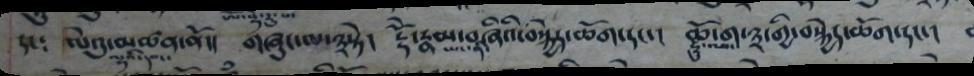དང༴  ལེའུ་མཚན་ནོ།།  གཞུང་ལ་༣སྟེ།   རྡོེ་རྣམ་བཞིའི་བསྐྱེད་ཆོག་དང་།   ཆོ་ག་༣་གྱི་བསྐྱེད་ཆོག་དང་།
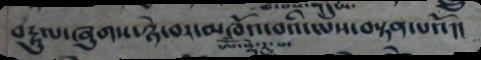བརྟུལ་ཞུགས་ཉེ་བར་མཁོའ་བའི་ལས་བསྟན་པའོ།།
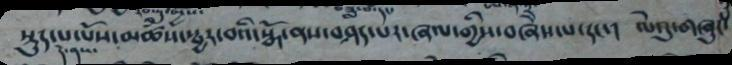སྡུད་པ་པོས་མཚཾས་སྦྱར་བའི་སྒོ་ནས་བཤད་པར་ཞལ་གྱིས་བཞེས་པ་དང་།  ལེའུ་གཞུང་
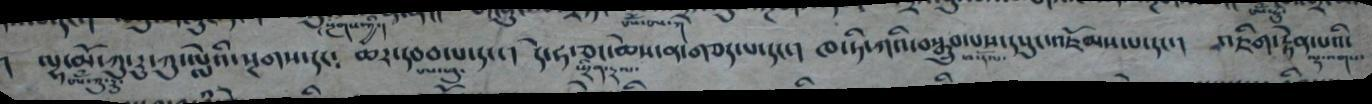།  ལྷ་མི་ཀུ་རུ་ཀུ་ལླེའི་སྔགས་དང༴	 ཆར་དབབ་པ་དང་།  དེ་ཧ་ཅང་ཆེས་ན་གཅད་པ་དང་།  ཁ་ཏི་ཀའི་བསྒྲུབ་པས་དཔུང་འཇོམས་པ་དང་།  འཇིག་རྟེན་པའི་
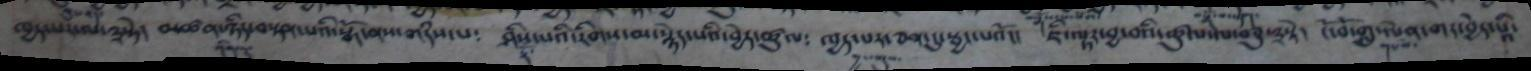ཁྱད་པར་མི་༣་ཏེ།  མཚན་ཉིད་བསྟན་པའི་སྒོ་ནས་གདཾས་པ༴  ཤིས་པའི་རིགས་མ་སྙེད་པའི་བྱེད་ཚུལ༴   ཁྱད་པར་ཅན་དུ་སྦྱང་པའོ།།   ཇི་ལྟར་བྱ་བའི་ཚུ་པའི་ས་བཅུ་༣སྟེ།    ངོ་བོ་གླ་ལེན་གད་བྱེད་པྰི་
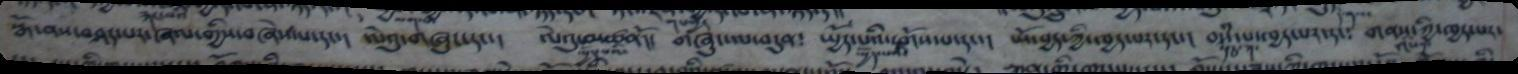སྒོ་ནས་བཤད་པར་ཞལ་གྱིས་བཞེས་པ་དང་།     ལེའུ་གཞུང་དང་།     ལེའུ་མཚནོ།།   གཞུང་ལ་བདུན༴   སྤྱོད་པའི་དགོས་པ་དང་།   སྤོང་བྱད་ཀྱི་ཁྱད་པར་དང་།   བདཾ་པ་ཁྱད་པར་དང༴   གནས་ཀྱི་ཁྱད་པར་
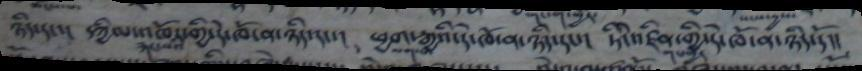ཉིད་དང་།  དཀྱིལ་འཁོར་གྱི་དེ་ཁོ་ན་ཉིད་དང་།  ཕྱག་རྒྱའི་དེ་ཁོ་ན་ཉིད་དང་།  ཏིང་ངེ་འཛིན་གྱི་དེ་ཁོ་ན་ཉིད་དོ།།
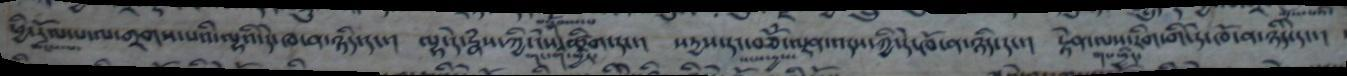ཕྱི་རོལ་པ་ལ་གྲགས་པའི་ལྷའི་དེ་ཁ་ན་ཉིད་དང་།  ལྷ་དེ་རྣཾས་ཀྱི་ངེས་ཚིག་དང་།  སདྱས་དང་བཅོཾ་ལྡན་འདས་ཀྱི་དེ་ཁོ་ན་ཉིད་དང་།  རྟེན་ལས་རིག་གི་དེ་ཁོ་ན་ཉིད་དང་།
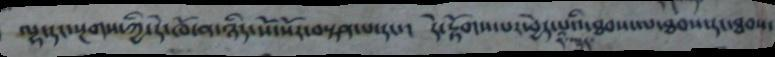ལྷ་དང་སྔགས་ཀྱི་དེ་ཁོ་ན་ཉིད་སོ་སོར་བསྟན་པ་དང་།  དེ་རྟོགས་པར་བྱེད་པའི་ཐབས་ལ་ཐབས་དང་ཐབས་
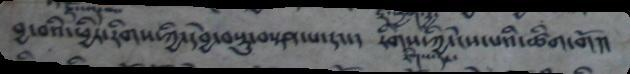བྱ་བའི་ཕྱིར་རིགས་ཀྱི་དབྱེ་བསྡུ་བསྟན་པ་དང་།  རིགས་ཀྱི་ངེས་པའི་ཚིག་གོ།།
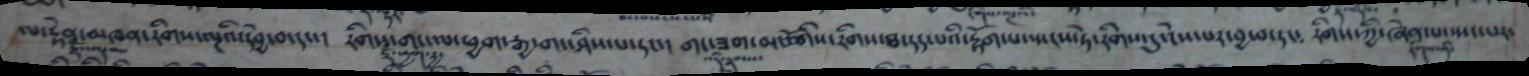ལ་རྟེན་མཁན་རིགས་ལྔའི་དབྱེ་བ་དང་།  རིགས་གང་ལ་ཕྱག་རྒྱ་གང་ཤིས་པ་དང་།  གང་ཟག་མང་གིས་རིགས་ཐ་དད་པའི་རྟོག་པ་སྤངས་ཏེ་རིགས་དུ་ངེས་པར་བྱ་བ་དང༴  རིགས་ཀྱི་ཞེན་པ་སྤང་པར་
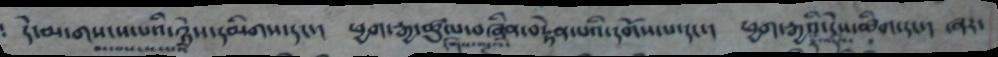དེ་མ་གསངས་པའི་ཉེས་དམིགས་དང་།   ཕྱག་རྒྱ་ཚུལ་བཞིན་བརྟེན་པའི་དགོས་པ་དང་།  ཕྱག་རྒྱའི་དྲིས་ཚིག་དང་།   ཞར་
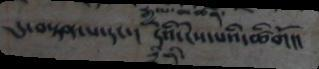དུ་བསྟན་པ་དང་།  དིའི་ངེས་པའི་ཚིགོ།།
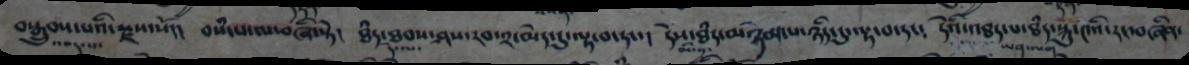བསྒྲུབས་པའི་སྫས་སོ།།   བསཾ་པ་ལ་བཞི་སྟེ།  ཐཾད་ཐབས་ཤས་རབ་༢་མེད་དུ་ལྟ་བ་དང་།   དེས་ཐཾད་མཉམ་པ་ཉིད་དུ་ལྟ་བ་དང༴  དེའི་འཐད་པ་ཐཾད་སྐུ་༤འི་རང་བཞིན་
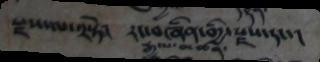རྫས་ལ་༢སྟེ།  རང་བཞིན་གྱིས་རྫས་དང་།
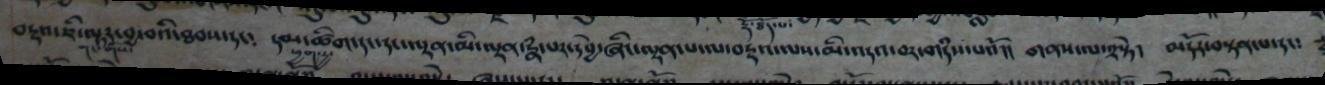བརྡའ་ཇི་ལྟར་བྱ་བའི་ཐབས་དང༴  དམ་ཚིག་དང་དང་ལྡན་མི་ལྡན་རྣཾ་པར་དབྱེ་ཞིང་ལྡན་པ་ལ་བརྡའ་ལས་མི་འདའ་བར་གདཾས་པའོ།།  གནས་ལ་༢སྟེ།  མདོར་བསྟན་པ་དང༴
